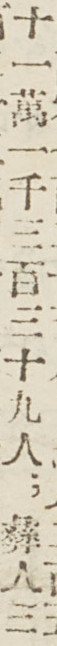十一萬一千三百三十九人；彝人三
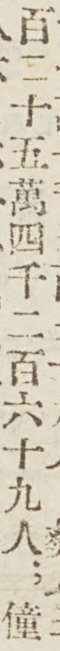百二十五萬四千二百六十九人；僮
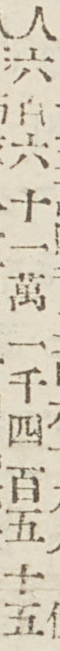人六百六十一萬一千四百五十五
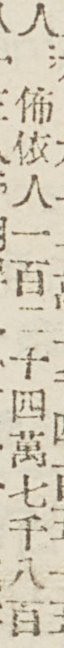人；佈依人一百二十四萬七千八百
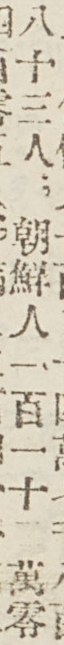八十三人；朝鮮人一百一十二萬零
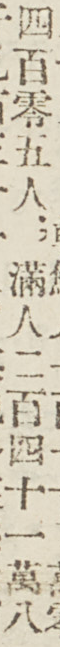四百零五人；滿人二百四十一萬八
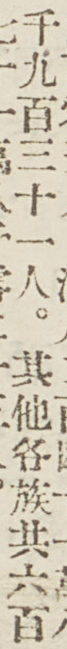千九百三十一人。其他各族共六百
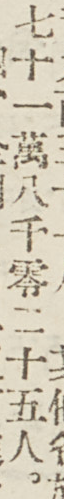七十一萬八千零二十五人。
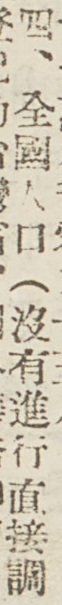四、全國人口（沒有進行直接調
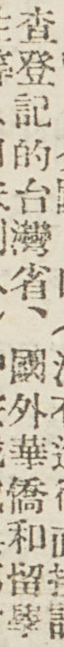查登記的台灣省、國外華僑和留學
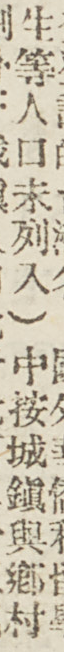生等人口未列入）中按城鎮與鄉村
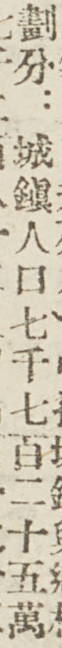劃分：城鎮人口七千七百二十五萬
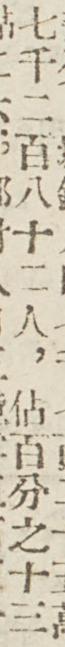七千二百八十二人，佔百分之十三
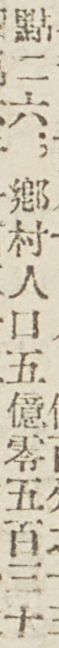點二六；鄉村人口五億零五百三十
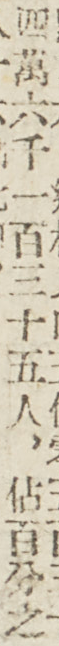四萬六千一百三十五人，佔百分之
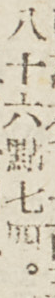八十六點七四。
